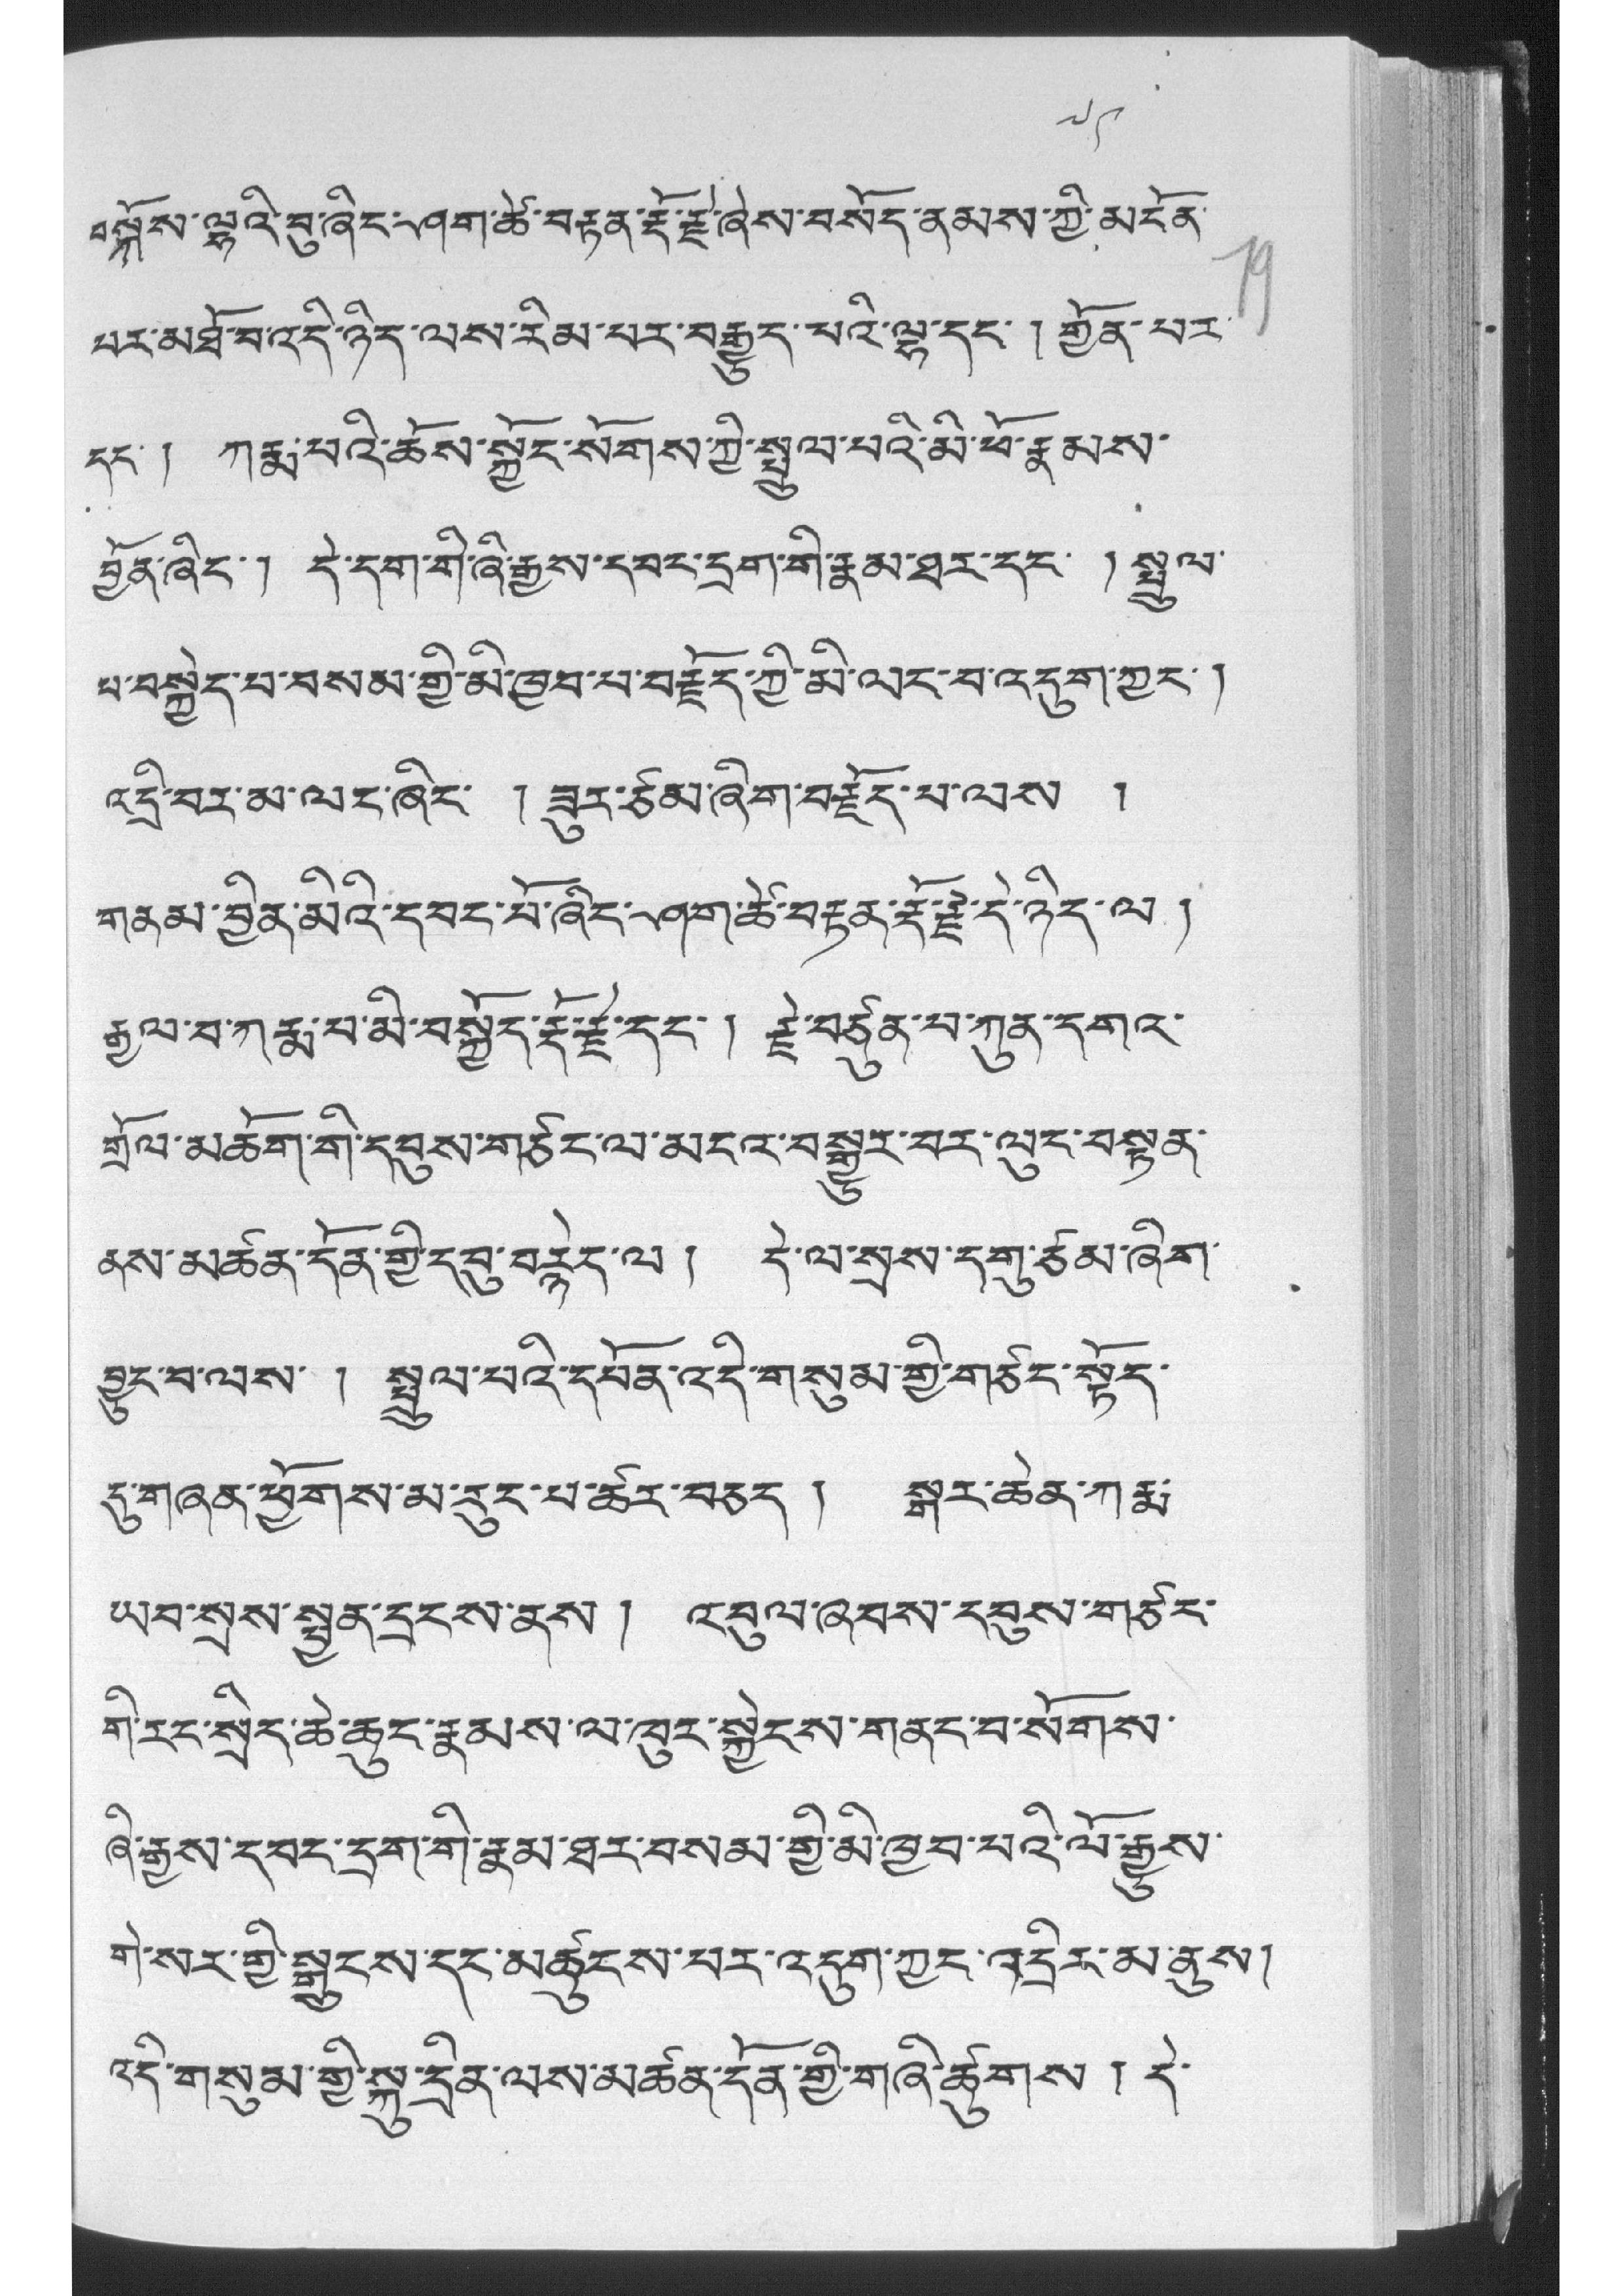༧༩
བསྐོས་ལྷའི་བུ་ཞིང་ཤག་ཚེ་བརྟན་རྡོ་རྗེ་ཞེས་བསོད་ནམས་ཀྱི་མངོན་
པར་མཐོ་བ་འདི་ཉིད་ལས་རིམ་པར་བརྒྱུད་པའི་ལྷ་དང་། གྱོན་པར་
དང་། ཀརྨ་པའི་ཆོས་སྐྱོང་སོགས་ཀྱི་སྤྲུལ་པའི་མི་ཕོ་རྣམས་
བྱོན་ཞིང་། དེ་དག་གི་ཞི་རྒྱས་དབང་དྲག་གི་རྣམ་ཐར་དང་། སྤྲུལ་
པ་བསྐྱེད་པ་བསམ་གྱི་མི་ཁྱབ་པ་བརྗོད་ཀྱི་མི་ལང་བ་འདུག་ཀྱང་།
འདྲི་བར་མ་ལང་ཞིང་ ། ཟུར་ཙམ་ཞིག་བརྗོད་པ་ལས །
གནམ་བྱིན་མིའི་དབང་པོ་ཞིང་ཤག་ཚེ་བརྟན་རྡོ་རྗེ་དེ་ཉིད་ལ །
རྒྱལ་བ་ཀརྨ་པ་མི་བསྐྱོད་རྡོ་རྗེ་དང་། རྗེ་བཙུན་པ་ཀུན་དགའ་
གྲོལ་མཆོག་གི་དབུས་གཙང་ལ་མངའ་བསྒྱུར་བར་ལུང་བསྟན་
ནས་མཚན་དོན་གྱི་དབུ་བརྙེད་ལ། དེ་ལ་སྲས་དགུ་ཙམ་ཞིག་
བྱུང་བ་ལས། སྤྲུལ་པའི་དཔོན་འདི་གསུམ་གྱི་གཙང་སྟོད་
དུ་གཞན་ཕྱོགས་མ་རུང་པ་ཚར་བཅད། སྒར་ཆེན་ཀརྨ་
ཡབ་སྲས་སྤྱན་དྲངས་ནས། འབུལ་ཞབས་དབུས་གཙང་
གི་རང་སྲིད་ཆེ་ཆུང་རྣམས་ལ་ཁུར་སྐྱེངས་གནང་བ་སོགས་
ཞི་རྒྱས་དབང་དྲག་གི་རྣམ་ཐར་བསམ་གྱི་མི་ཁྱབ་པའི་ལོ་རྒྱུས་
གེ་སར་གྱི་སྒྲུངས་དང་མཚུངས་པར་འདུག་ཀྱང་འདྲིར་མ་ནུས།
འདི་གསུམ་གྱི་སྐུ་དྲིན་ལས་མཚན་དོན་གྱི་གཞི་ཚུགས། དེ་
